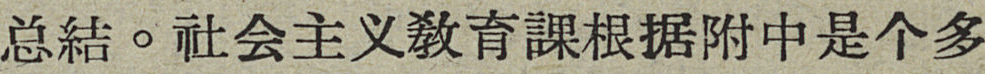总結。社会主义敎育課根据附中是个多
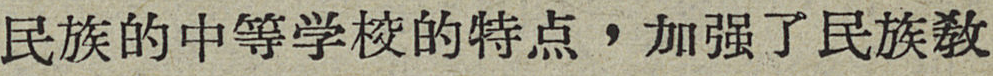民族的中等学校的特点，加强了民族敎
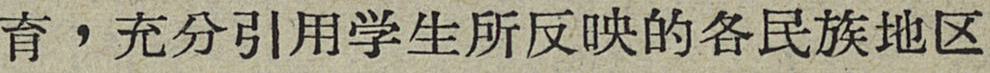育，充分引用学生所反映的各民族地区
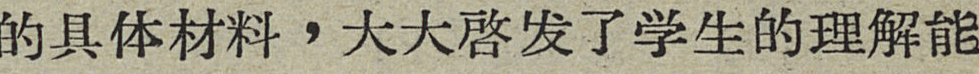的具体材料，大大啓发了学生的理解能
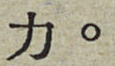力。
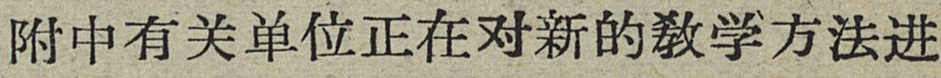附中有关单位正在对新的敎学方法进
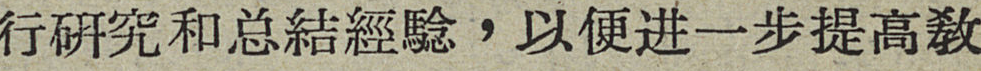行研究和总結經騐，以便进一步提高敎
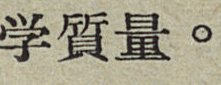学質量。
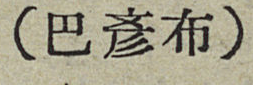（巴彥布）
